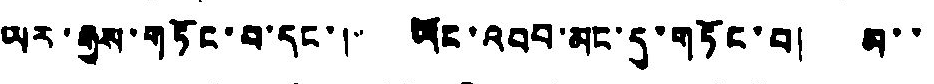ཡར་རྒྱས་གཏོང་བ་དང་། ཡོང་འབབ་མང་དུ་གཏོང་བ། མ་་
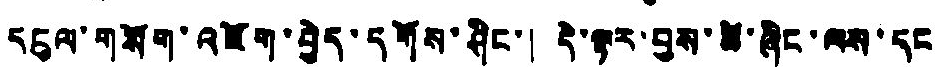དངུལ་གསོག་འཇོག་བྱེད་དགོས་ཤིང་། དེ་ལྟར་བྱས་ཚེ་ཞིང་ལས་དང
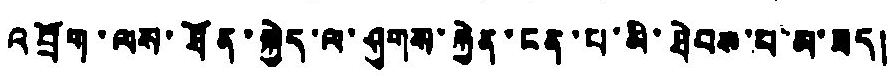འབྲོག་ལས་ཐོན་སྐྱེད་ལ་ཤུགས་རྐྱེན་ངན་པ་མི་ཐེབས་པ་མ་ཟད།
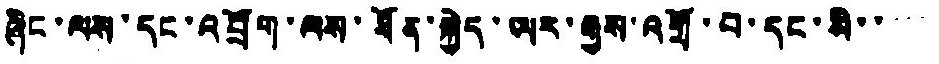ཞིང་ལས་དང་འབྲོག་ལས་ཐོན་སྐྱེད་ཡར་རྒྱས་འགྲོ་བ་དང་མི་་་་་
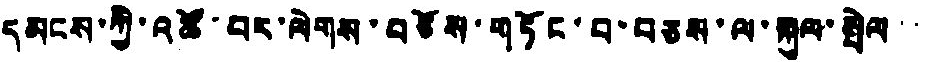དམངས་ཀྱི་འཚོ་བར་ལེགས་བཅོས་གཏོང་བ་བཅས་ལ་སྐུལ་སྤེལ་་
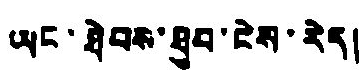ཡང་ཐེབས་ཐུབ་ངེས་རེད།
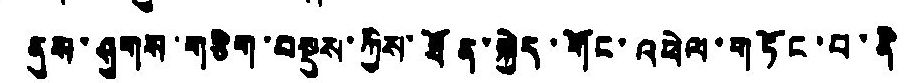ནུས་ཞུགས་གཅིག་བསྡུས་ཀྱིས་ཐོན་སྐྱེད་གོང་འཕེལ་གཏོང་བ་ནི
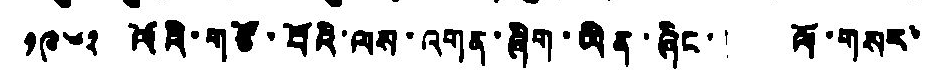༡༩༦༢ ལོའི་གཙོ་བོའི་ལས་འགན་ཞིག་ཡིན་ཞིང་། ལོ་གསར་
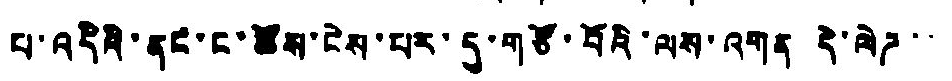པ་འདིའི་ནང་ང་ཚོས་ངེས་པར་དུ་གཙོ་བོའི་ལས་འགན དེ་ལེཌ་་
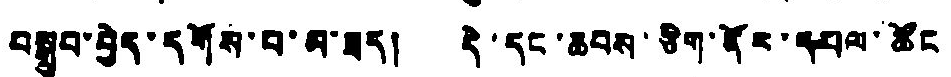བསྒྲུབ་བྱེད་དགོས་པ་མ་ཟད། དེ་དང་ཆབས་ཅིག་ནོར་དཔལ་ཚོང
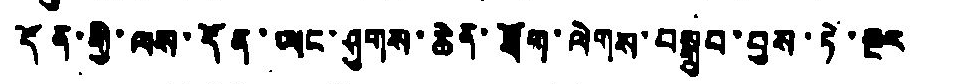དོན་གྱི་ལས་དོན་ཡང་ཤུགས་ཆེན་ཐོག་ལེགས་བསྒྲུབ་བྱས་ཏེ་སྔར
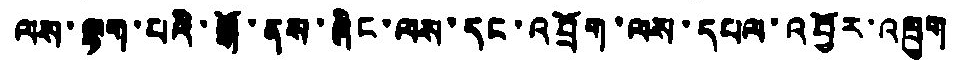ལས་ལྷག་པའི་སྒོ་ནས་ཞིང་ལས་དང་འབྲོག་ལས་དཔལ་འབྱོར་འཁྲུག
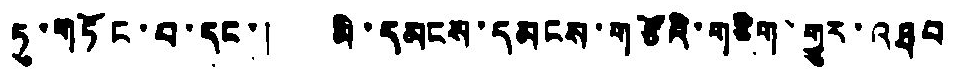ཏུ་གཏོང་བ་དང་། མི་དམངས་དམངས་གཙོའི་གཅིག་གྱུར་འཐབ
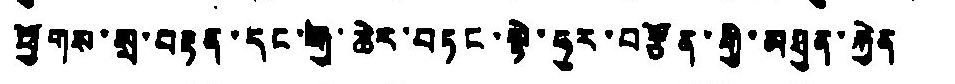ཕྱོགས་སྲ་བརྟན་དང་རྒྱ་ཆེར་བཏང་སྟེ་ཧུར་བརྩོན་གྱི་མཐུན་རྐྱེན
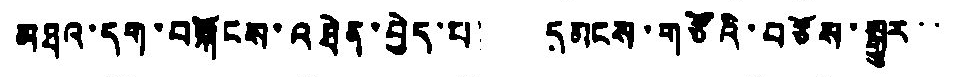མཐའ་དག་བསྐོངས་འཐེན་བྱེད་པ། དམངས་གཙོའི་བཅོས་སྒྱུར་་
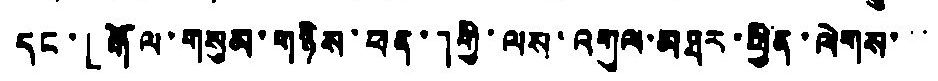དང་།「རྒོལ་གསུམ་གཉིས་ཕན་」གྱི་ལས་འགུལ་མཐར་གྱིན་ལེགས་་་
